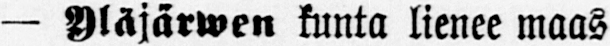— Yläjärwen kunta lienee maas-
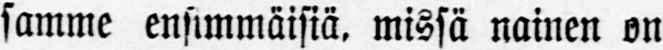samme ensimmäisiä, missä nainen on
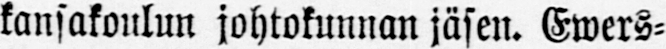kansakoulun johtokunnan jäsen. Ewers-
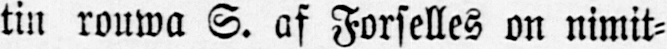tin rouwa S. af Forselles on nimit-
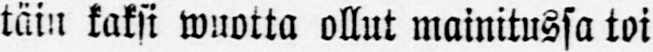täin kaksi wuotta ollut mainitussa toi
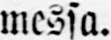messa.
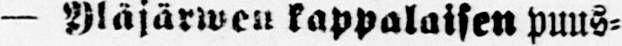— Yläjärwen kappalaisen puus-
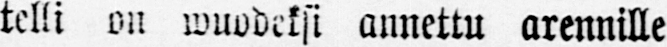telli on wuodeksi annettu arennille
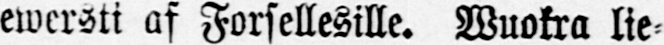ewersti af Forsellesille. Wuokra lie-
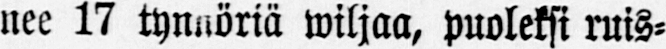nee 17 tynnöriä wiljaa, puoleksi ruis-
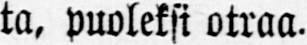ta, puoleksi otraa-
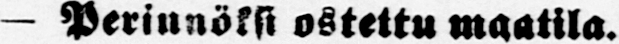— Perinnöksi ostettu maatila.
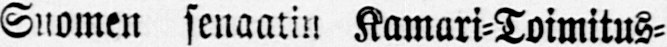Suomen senaatin Kamari-Toimitus-
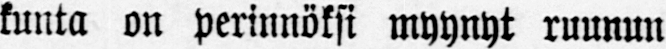kunta on perinnöksi myynyt ruunun
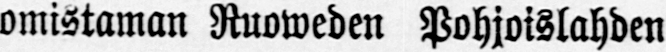omistaman Ruoweden Pohjoislahden
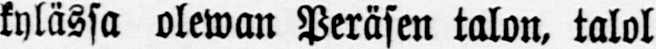kylässä olewan Peräsen talon, talol-
